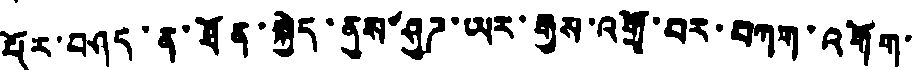པོར་བཤད་ན་ཐོན་སྐྱེད་ནུས་ཤུཌ་ཡར་རྒྱས་འགྲོ་བར་བཀག་འགོག་
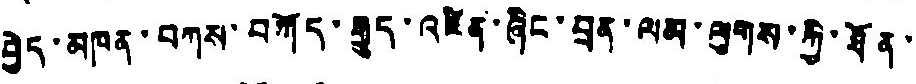བྱེད་མཁན་བཀས་བཀོད་རྒྱུད་འཛིན་ཞིང་བྲན་ལམ་ལུགས་ཀྱི་ཐོན་
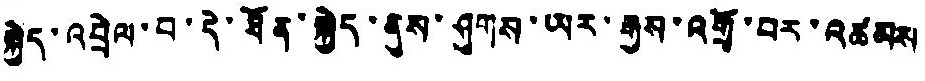སྐྱེད་འབྲེལ་བ་དེ་ཐོན་སྐྱེད་ནུས་ཤུགས་ཡར་རྒྱས་འགྲོ་བར་འཚམས
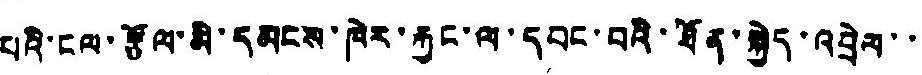པའི་ངལ་རྩོལ་མི་དམངས་ཁེར་རྐྱང་ལ་དབང་བའི་ཐོན་སྐྱེད་འབྲེལ་་
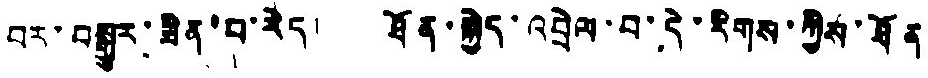བར་བསྒྱུར་ཟིན་པ་རེད། ཐོན་སྐྱེད་འབྲེལ་བ་དེ་རིགས་ཀྱིས་ཐོན
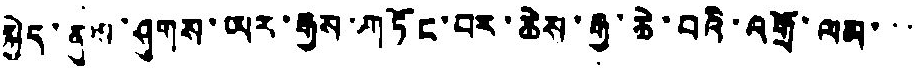སྐྱེད་ནུས་ཤུགས་ཡར་རྒྱས་གཏོང་བར་ཆེས་རྒྱ་ཆེ་བའི་འགྲོ་ལམ་་་
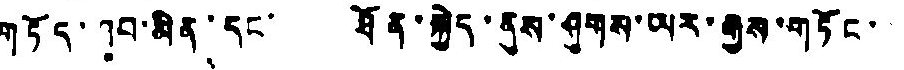གཏོད་ཐུབ་མིན་དང་ ཐོན་སྐྱེད་ནུས་ཤུགས་ཡར་རྒྱས་གཏོང་
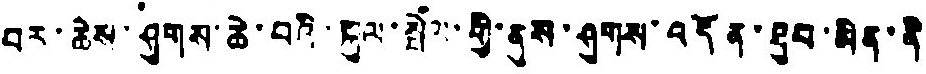བར་ཆེས་ཤུགས་ཆེ་བའི་རྐྱལ་སྤེལ་གྱི་ནུས་ཤུགས་འདོན་ཐུབ་མིན་ནི
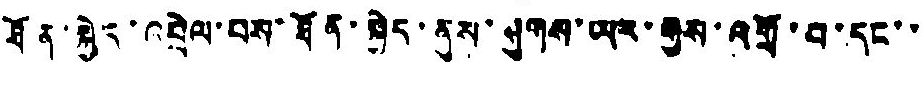ཐོན་སྐྱེར་འབྲེལ་བས་ཐོན་སྐྱེད་ནུས་ཤུགས་ཡར་རྒྱས་འགྲོ་བ་དང་་
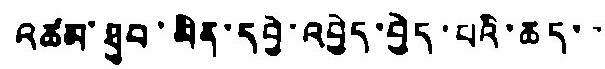འཚམ་ཐུབ་ལིན་དབྱེ་འབྱེད་བྱེད་པའི་ཆད་་
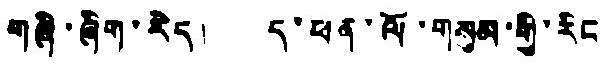གཞི་ཞིག་རེད། ད་ཕན་ལོ་གསུམ་གྱི་རིང
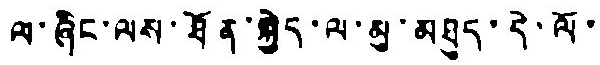ལ་ཞིང་ལས་ཐོན་སྐྱེད་ལ་མུ་མཐུད་དེ་ལོ་
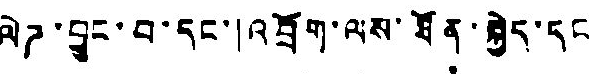ལེཌ་བྱུང་བ་དང་། འབྲོག་ལས་ཐོན་སྐྱེད་དང
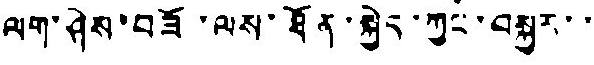ལག་ཤེས་བཟོ་ལས་ཐོན་སྐྱེད་ཀྱང་བསྐྱར་་
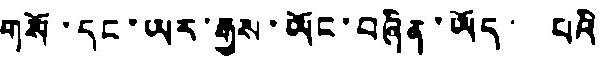གསོ་དང་ཡར་རྒྱས་ཡོང་བཞིན་ཡོད་ པའི་
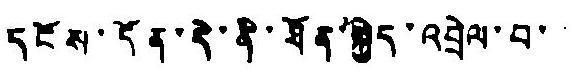དངོས་དོན་དེ་ནི་ཐོན་སྐྱེད་འབྲེལ་བ་་
